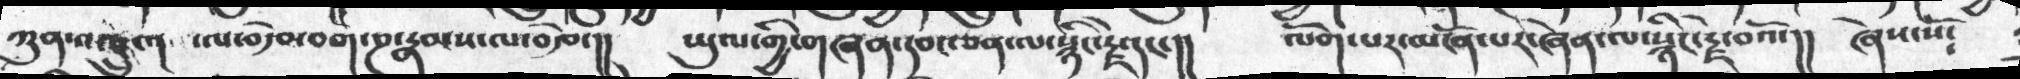ཀུན་འཁྲུག  ་ལབརྩེ་བག་ཎ་རྣམས་ལ་བརྩེ་།།  ཡུལ་གྱི་གཞན་དབང་ཅན་ལ་སྙིང་རྗེ་དང་།།  ལོག་པར་མངོན་པར་ཞེན་ལ་སྙིང་རྗེ་བའོ་།།  ཞེས་སོ༴
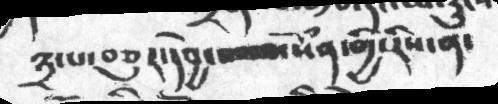༣་པ་བཅུར་དབྱེ་   སེཾན་གྱི་རིས་ན་
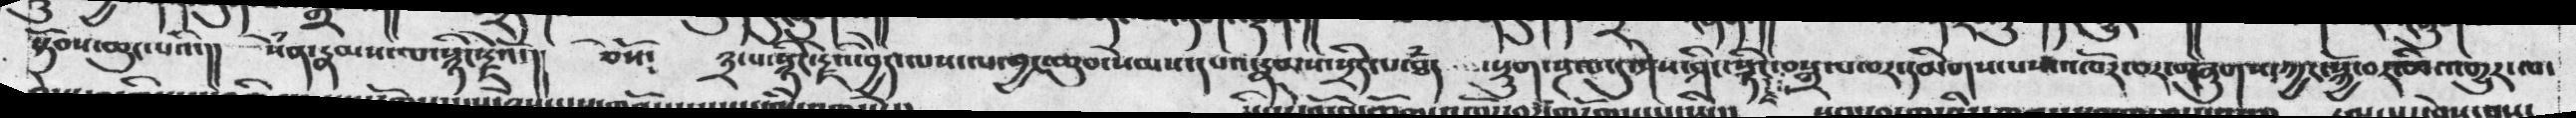སྟོབས་ཆུང་པའི་།།  སེཾན་རྣམས་ལ་སྙིང་རྗེའོ་།།  ཅེསོ༴ ༣་པ་སྙིང་རྗེའི་བྱེད་ལས་ལ་བྱང་ཆུབ་སེམས་དཔའ་རྣམས་སྲིད་པ་ཐྃད  སྡུག་སྔལ་དུ་ཤེས་ཤིང་སྙིང་རྗེས་བསྒྲལ་བར་དམིགས་པས་འཁོར་བར་གཞུགས་ཀྱང་སྐྱོ་བར་མི་འགྱུར་ལ་
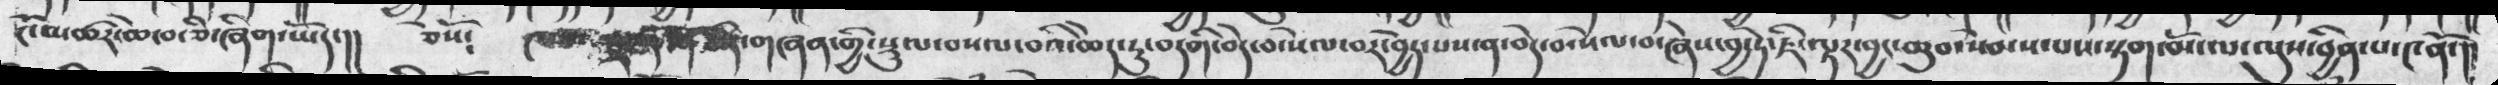ངོ་མཚར་ཆེ་བ་ཅི་ཞིག་ཡོད་།།   ཅེསོ༴      གཞན་གྱི་སྡུལ་བསལ་བའི་ཆེད་དུ་བདགི་བདེ་བ་སེལ་བར་བྱེད་པས་ན་བདེ་བ་སེལ་བ་ཞེས་བྱེ་ཏེ་ཇི་ལྟར་བྱང་ཆུབ་སེམས་པས་སྟག་མོ་ལ་ལུས་བྱིན་པ་༤ནོ་།།
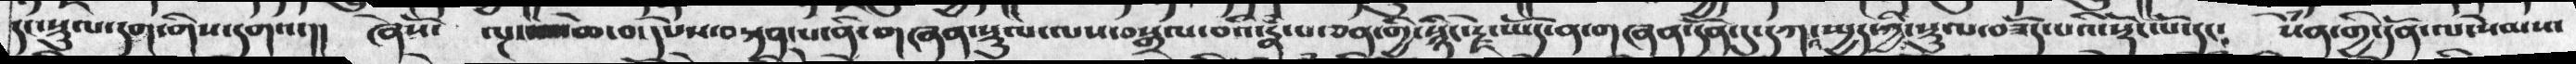དང་སྡུལ་དག་གིས་དགའ་།།  ཞེསོ་  ལྔ་པ་ཆེ་བ་དཔེས་བསྟན་པ་ནི་གཞན་སྡུལ་ལས་བསྒྲལ་བའི་རྣཾ་པ་ཅན་གྱི་སྙིང་རྗེ་ཡོད་ན་གཞན་དོན་དུ་དཀའ་སྤྱད་ཀྱི་སྡུལ་བཟོད་པའི་སྡོང་པོ་དང༴ སེཾན་གྱི་དོན་ལ་སེམས་
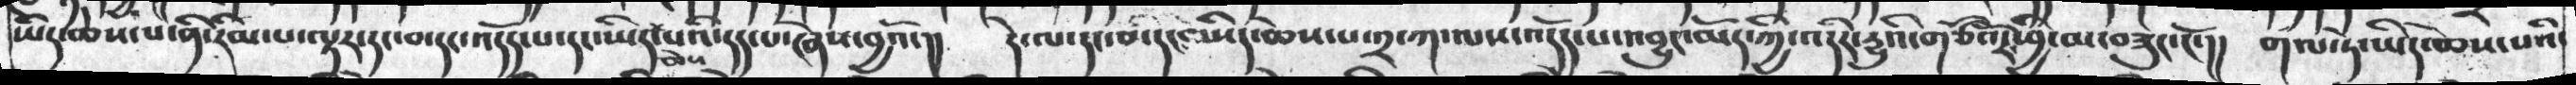ཡིད་ཆེས་པ་ནི་རིམ་པ་ལྟར་དང་བ་དང་འདོད་པ་དང་ཡིད་ཆེས་པའི་དད་པ་ཞེས་བྱའོ་།།  དེ་ལ་དང་བ་དང་ཡིད་ཆེས་པ་༢་ཀ་ལས་འདོད་པ་འབྱུང་མོར་ཀྱི་འདིར་དྱུའི་གཙོ་བོར་ཕྱི་མ་བཟུང་ངོ་།  གལ་ཏེ་ཡིད་ཆེས་པའི་
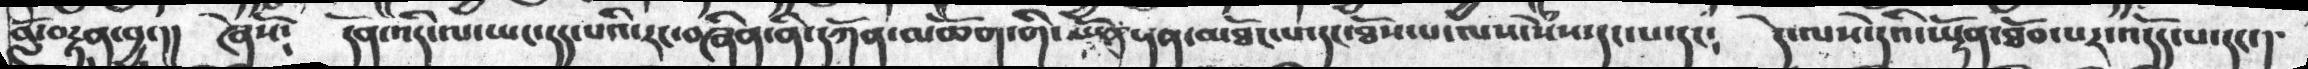བློ་བརྟན་བྱ་།།  ཞེསོ༴  དོན་འདི་ལ་ཡང་དད་པའི་རང་བཞིན་ནི་དཀོན་མཆོག་གི་ཡོན་ཏན་མཐོང་པ་དང་ཐོས་པ་ལས་སེཾས་དང་པ་དང༴  དེ་ལས་དེའི་ཡྟོན་ཐོབ་པར་འདོད་པ་དང་།
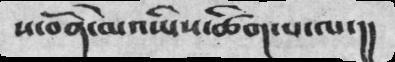ས་བོན་མེ་་ཡིས་ཚིག་པ་ལ་།།
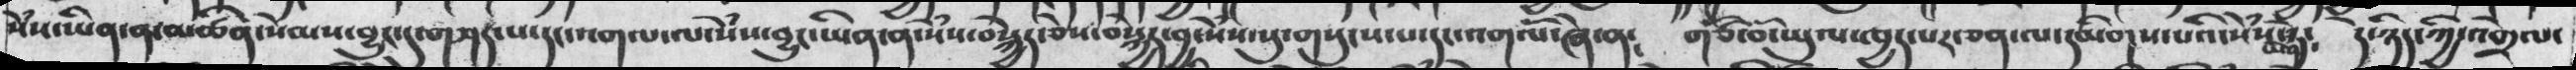སེཾས་ཡིན་ན་མཚིན་སེམས་བྱུང་དུ་གཤར་པ་དང་འགལ་ལ་སེཾས་བྱུང་ཡིན་ན་སེཾས་བསྐྱེད་ཅེས་བསྐྱེད་བྱ་སེཾས་སུ་གསུངས་པ་དང་འགལོ་ཞེ་ན༴  གཙོ་བོ་ཡུལ་ཁྱད་པར་ཅན་ལ་དམིགས་པའི་སེཾས་ཡིན་ཏེ༴  དེ་ཉིད་ཀྱི་འགྲེལ་
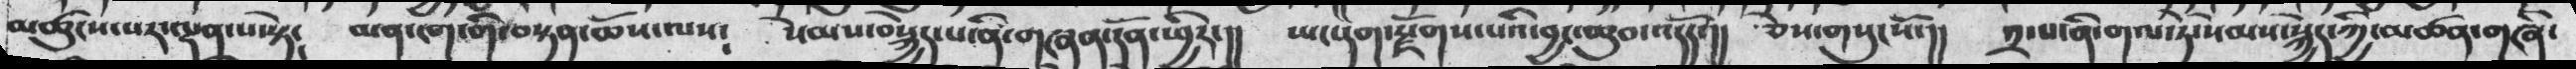མཚུང་པར་ལྡན་པ་སྟ༴  མན་ངག་གི་བསྟན་ཆོས་ལས༴  སེམས་བསྐྱེད་པ་ནི་གཞན་དོན་ཕྱིར་།།  ཡང་དག་རྫོགས་པའི་བྱང་ཆུབ་འདོད་།།  ཅེས་གསུངསོ་།།  ༢་པ་ནི་གལ་ཏེ་སེམས་སྐྱེད་ཀྱི་མཚན་གཞི་
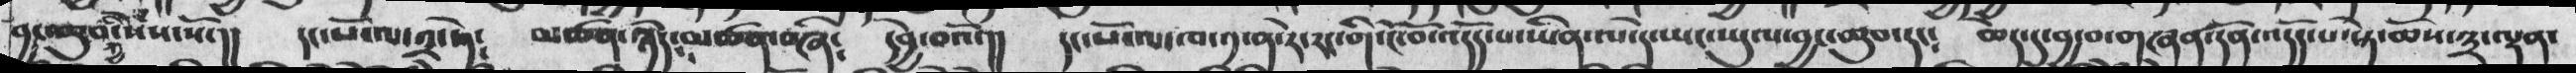བྱང་ཆུབ་ཀྱི་སེཾས་སོ་།།  དང་པོ་ལ་༢་ཏེ༴  མཚན་ཉིད༴མཚན་བཞི༴  དབྱེ་བའོ་།།  དང་པོ་ལ་ཁ་༡་ན་རེ་རང་གི་ངོ་བོ་འདོད་པ་ཡིན་ལ་དེ་ཡང་ཡུལ་བྱང་ཆུབ་དང༴  ཆེད་དུ་བྱ་བ་གཞན་དོན་འདོད་པ་སྟེ་ཆོས་༣་ལྡན་
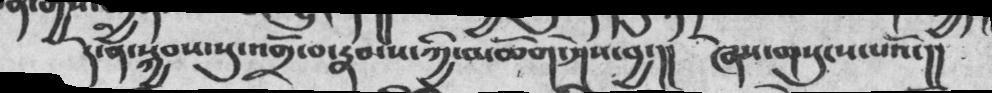དེ་ན་སྐྱབས་སུ་འགྲོ་བ་རྣམས་ཀྱི་མཆོག་ཤེས་བྱ་།།  ཞེས་གསུངས་པའོ་།།
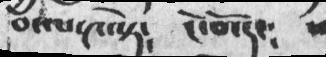བ་ལ་༤་སྟེ༴  ངོ་བོ་དང༴
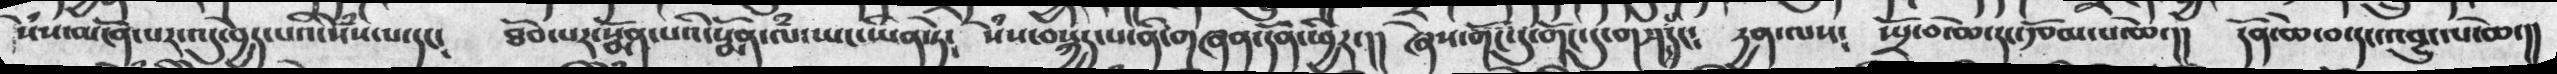སེཾས་མངོན་པར་འདུ་བྱེད་པའི་སེཾས་པ་དང༴   ཐོབ་པར་སྨོན་པའི་སྨོན་ལཾ་ཡང་ཡིན་ཏེ༴  སེཾས་བསྐྱེད་པ་ནི་གཞན་དོན་ཕྱིར་།། ཞེས་གོང་དུ་གོང་དུ་གཤད་དང༴  དྱན་ལས༴  སྤྲོ་བ་ཆེ་དང་རྩོམ་པ་ཆེ་།།  དོན་ཆེ་བ་དང་འབྱུང་པ་ཆེ་།།
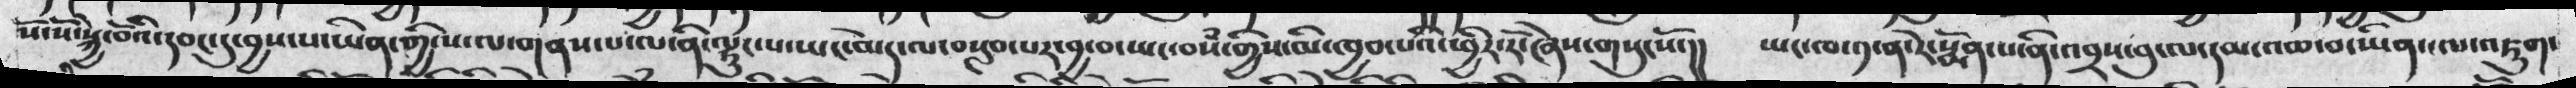སོ་སོ་སྐྱེ་བོའི་དབང་དུ་བྱས་པ་ཡིན་གྱིས་ལ་གནས་པ་ལ་ནི་ལྷུང་པ་ཡང་མེད་ལ་བསླབ་པར་བྱ་བ་ཡང་བསཾ་གྱིས་མི་ཁྱབ་པའི་ཕྱིར་རོ་ཞེས་གསུངསོ་།།  ཡང་ཁ་༡་ན་རེ་སྨོན་པ་ནི་འབྲས་བུ་ལ་དམ་འཆ་བ་ཡིན་ལ་འཇུག་
